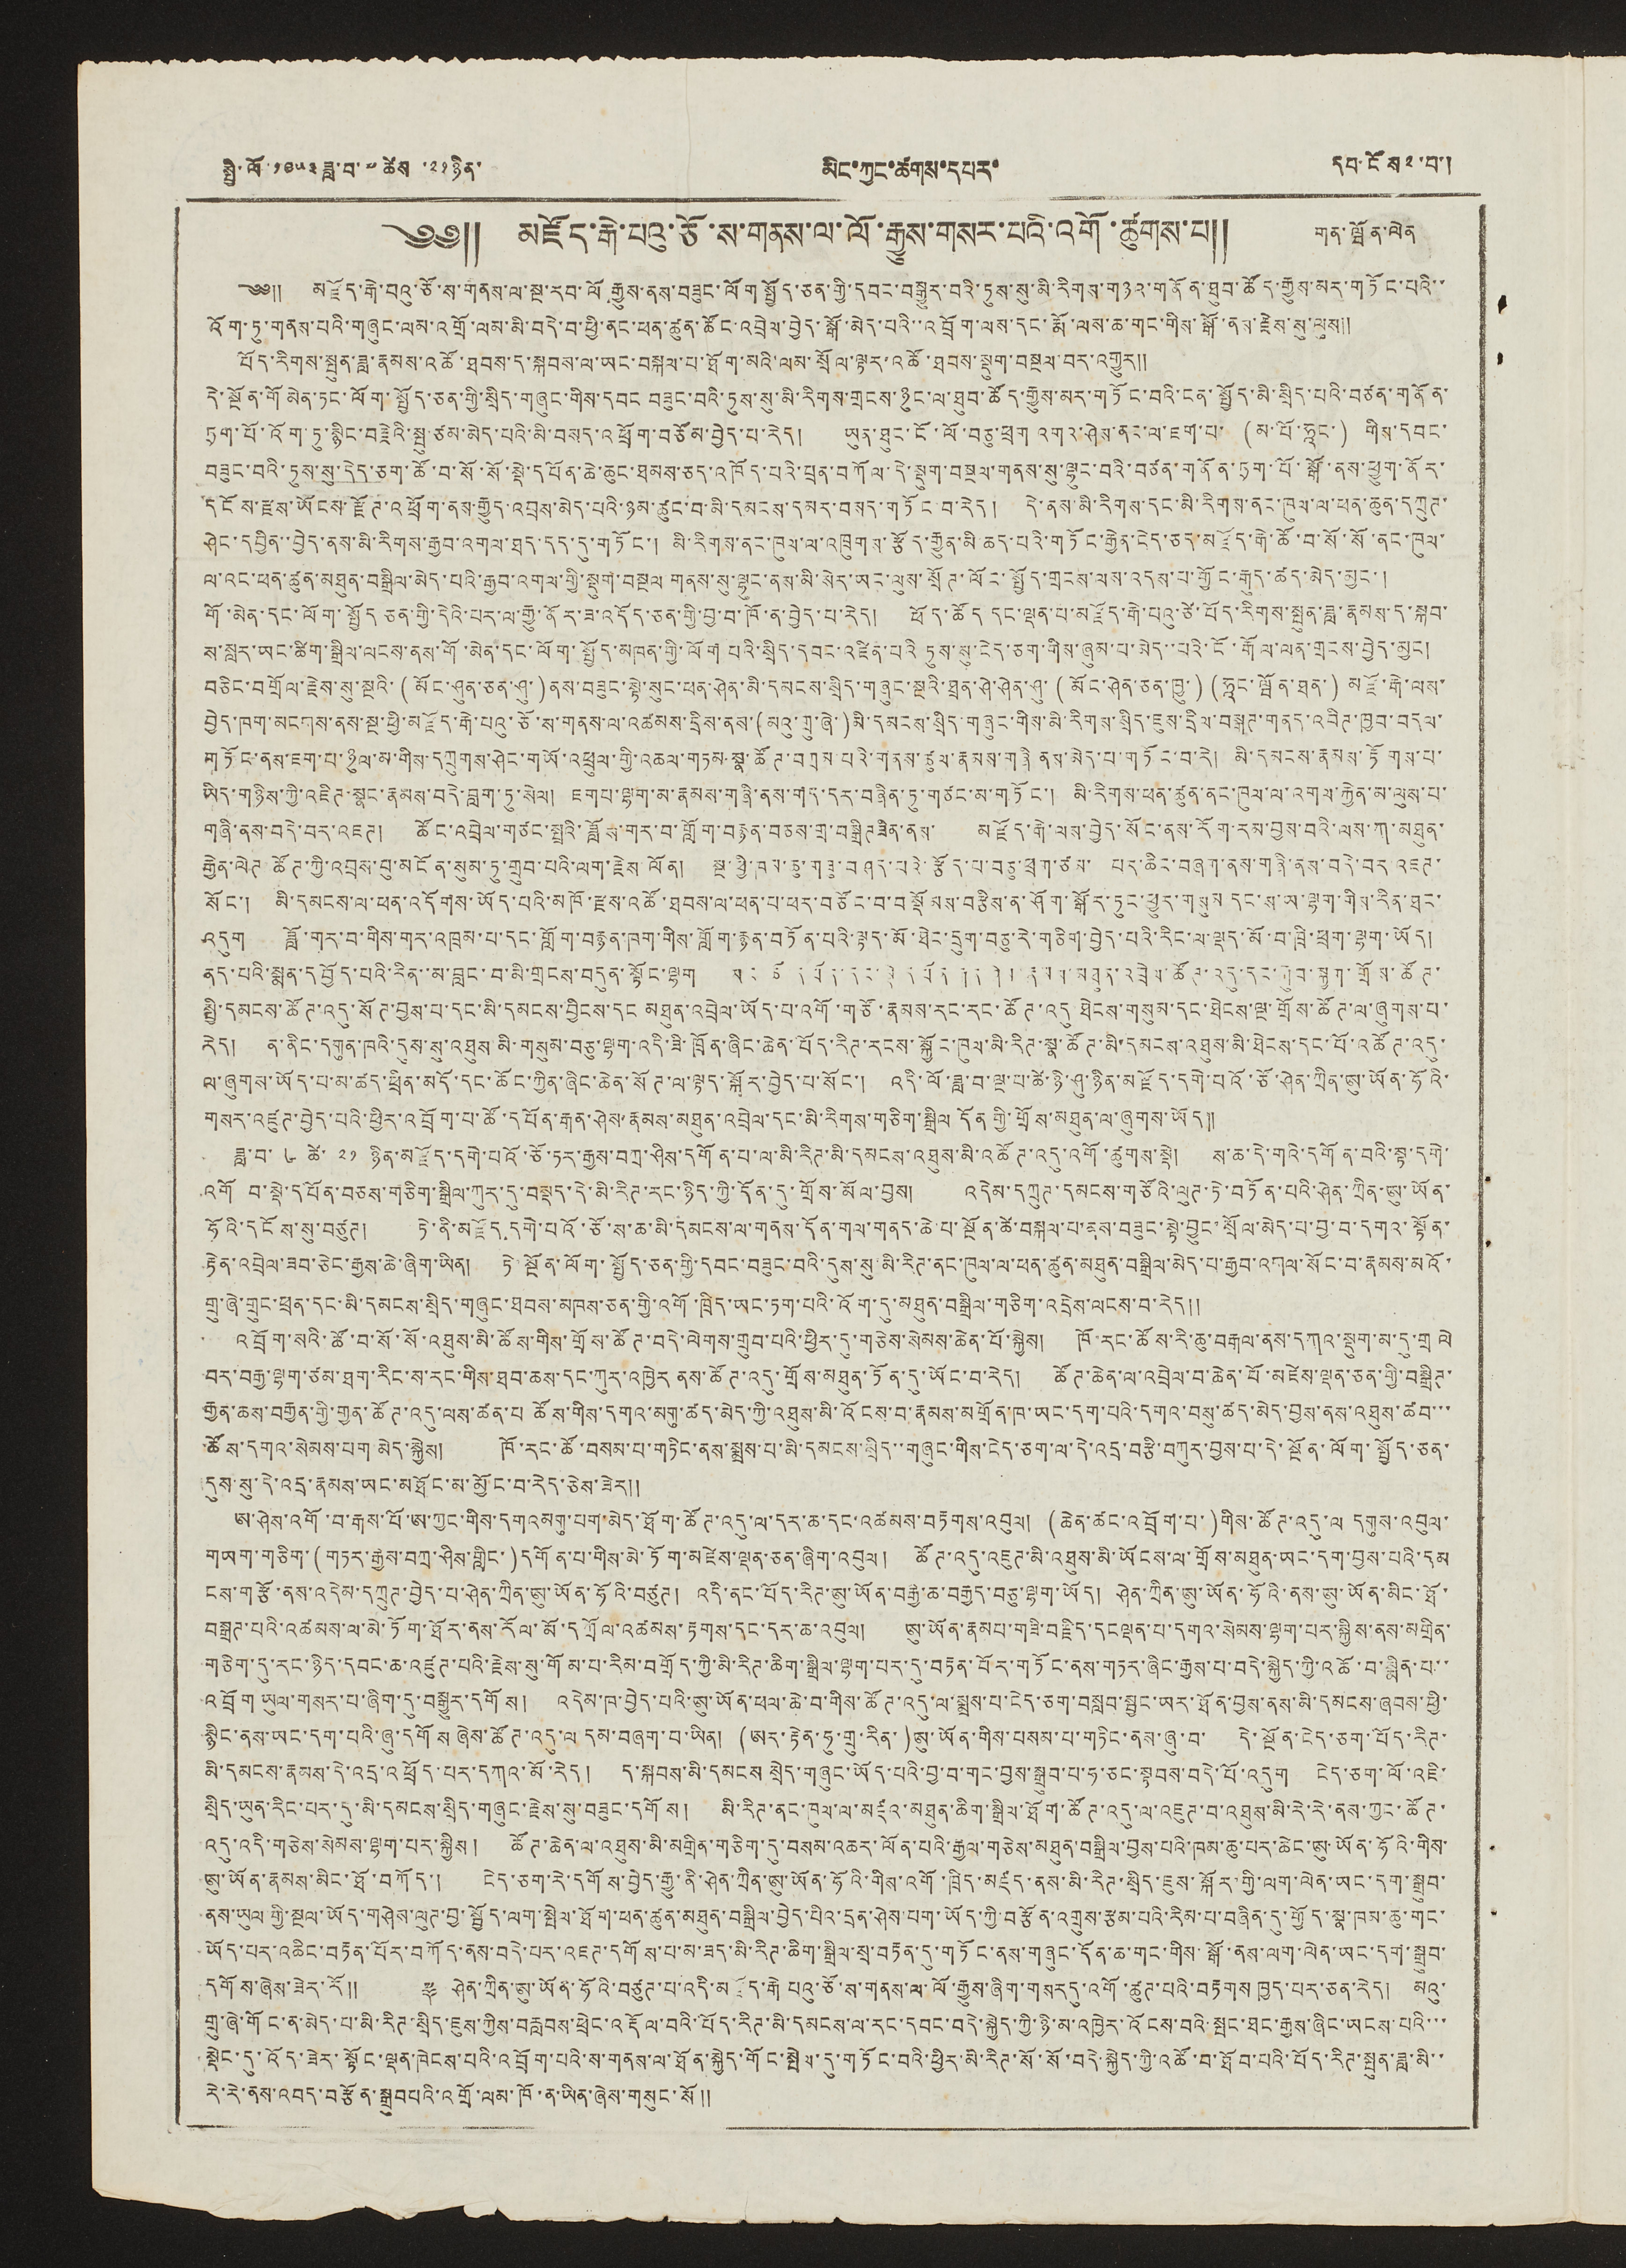སྤྱི་ལོ་ ༡༩༥༣ ཟླ་བ་ ༧ ཚེས ་༢༡ ཉིན་ མིང་ཀྱང་ཚགས་དཔར་ དཔ་ངོས ༢ ་བ་།
༄༅༎ མཛོད་རྒེ་པའུ་ཅོ་ས་གནས་ལ་ལོ་རྒྱུས་གསར་པའི་འགོ་ཚུགས་པ༎
གན་ཝོན་ལེན
༄༅༎ མཛོད་རྒེ་པའུ་ཅོ་ས་གནས་ལ་སྔ་རབ་ལོ་རྒྱུས་ནས་བཟུང་ལོག་སྤྱོད་ཅན་གྱི་དབང་བསྒྱུར་བའི་དུས་སུ་མི་རིགས་གཉའ་གནོན་ཐུབ་ཚོད་རྒྱུག་མར་གཏོང་པའི་་
འོག་ཏུ་གནས་པའི་གཞུང་ལམ་འགྲོ་ལམ་མི་བདེ་བ་ཕྱི་ནང་ཕན་ཚུན་ཚོང་འབྲེལ་བྱེད་སྒོ་མེད་པའི་་འབྲོག་ལས་དང་རྨོ་ལས་ཆ་གང་གིས་སྒོ་ནས་རྗེས་སུ་ལུས༎
བོད་རིགས་སྤུན་ཟླ་རྣམས་འཚོ་ཐབས་ད་སྐབས་ལ་ཡང་བསྐལ་བ་ཐོག་མའི་ལམ་སྲོལ་ལྟར་འཚོ་ཐབས་སྡུག་བསྔལ་བར་འགྱུར༎
དེ་སྔོན་གོ མེན་ཏང་ལོག་སྤྱོད་ཅན་གྱི་སྲིད་གཞུང་གིས་དབང བཟུང་བའི་ཏུས་སུ་མི་རིགས་གྲངས་ཉུང་ལ་ཐུབ་ཚོད་རྒྱུས་མར་གཏོང་བའི་ངན་སྤྱོད་མི་སྲིད་པའི་བཙན་གནོན་
ཏྲག་པོ་འོག་ཏུ་སྙིང་བརྗེའི་སྤུ་ཙམ་མེད་པའི་མི་བསད་འཕྲོག་བཙོམ་བྱེད་པ་རེད། ཡུན་ཐུང་ངོ་ལོ་བཅུ་ཕྲག འགའ ཤེས་ནང་ལ་ཇག་པ་ (མ་པོ་ཧཱང་) གིས་དབང་
བཟུང་བའི་ཏུས་སུ་དེད་ཅག་ཚོ་བ་སོ་སོ་སྡེ་དཔོན་ཆེ་ཆུང་ཐམས་ཅད་འཁོད་པའི་པྲན་བཀོལ་དེ་སྡུག་བསྔལ་གནས་སུ་ལྷུང་བའི་བཙན་གནོན་ཏྲག་པོ་སྒོ་ནས་ཕྱུག་ནོར་
དངོས་རྫས་ཡོངས་རྫོཊ་འཕྲོག་ནས་རྒྱུད་འབྲས་མེད་པའི་ཉམ་ཚུང་བ་མི་དམངས་དམར་བསད་གཏོང་བ་རེད། དེ་ནས་མི་རིགས་དང་མི་རིགས་ནང་ཁུལ་ལ་ཕན་ཆུན་དཀྲུཊ་
ཤེང་དབྱིན་་བྱེད་ནས་མི་རིགས་རྒྱབ་འགལ་ཐད་དད་དུ་གཏོང་། མི་རིགས་ནང་ཁུལ་ལ་འཁྲུགས་རྩོད་རྒྱུན་མི ཆད་པའི་གཏོང་རྒྱེན་ངེད་ཅད་མཛོད་རྒེ་ཚོ་བ་སོ་སོ་ནང་ཁུལ་
ལ་འང་ཕན་ཚུན་མཐུན་བསྒྲིལ་མེད་པའི་རྒྱབ་འགལ་གྱི་སྡུག་བསྔལ གནས་སུ་ལྷུང་ནས་མི་སེར་ཡང་ལུས་སྲོཊ་ལོང་སྤྱོད་གྲངས་ལས་འདས་པ་གྱོང་རྒུད་ཚད་མེད་མྱང་།
གོ་མེན་དང་ལོག་སྤྱོད ཅན་གྱི་དེའི་པར་ལ་རྒྱུ་ནོར་ཟ་འདོད་ཅན་གྱི་བྱ་བ་ཁོ་ན་བྱེད་པ་རེད། ཕོད་ཚོད དང་ལྡན་པ་མཛོད་རྒེ་པའུ་ཙེ་བོད་རིགས་སྤུན་ཟླ་རྣམས་ད་སྐབ་
ས་སླར་ཡང་ཚིག་སྒྲིལ་ལངས་ནས་གོ་མེད་དང་ལོག་སྤྱོད་མཁན་གྱི་ལོག པའི་སྲིད་དབང་འཛིན་པའི ཏུས་སུ་ངེད་ཅག་གིས་ཞུམ་པ་མེད་་པའི་ངོ་རྒོལ་ལན་གྲངས་བྱེད་མྱང།
བཅིང་བགྲོལ་རྗེས་སུ་སྔའི་ (མོང་ཤུན་ཅན་ཤུ་) ནས་བཟུང་སྟེ་སུང་ཕན་ཤེན་མི་དམངས་སྲིད་གཞུང་སྔའི་ཐྲན་ཤེ་ཤེན་ཤུ་ (མོང་ཤེན་ཅན་ཁྱུ་) (ཧཱང་ཝོན་ཐན་) མཛོ་རྒེ་ལས་
བྱེད་ཁག་མངགས་ནས་སྔ་ཕྱི་མཛོད་རྒེ་པའུ་ཅོ་ས་གནས་ལ་འཚམས་དྲིས་ནས་(མའུ་གྲུ་ཞེ་)མི་དམངས་སྲིད་གཞུང་གིས་མི་རིགས་སྲིད་ཇུས་དྲིལ་བསྒཊ་གནད་འབིཊ་ཁྱབ་བདལ་
གཏོང་ནས་ཇག་པ་ཉུལ་མ་གིས་དཀྲུགས་ཤེང་གཡོ་འཕྲུལ་གྱི་འཆལ་གཏམ་སྣ་ཚོཊ་བཀྲམ་པའི་གནས་ཚུལ་རྣམས་གཞི ནས་མེད་པ་གཏོང་བ་རེ། མི་དམངས་རྣམས་རྟོགས་པ་
ཡིད་གཉིས་ཀྱི་འཛིཊ་སྣང་རྣམས་བདེ་བླག་ཏུ་སེལ། ཇག པ་ལྷག་མ་རྣམས་གཞི་ནས་གད་དར་བཞིན་ཏུ་གཙང་མ་གཏོང་། མི་རིགས་ཕན་ཚུན་ནང་ཁུལ་ལ་འགལ་རྐྱེན་མ་ལུས་པ་
གཞི་ནས་བདེ་བར་འཇཊ། ཚོང་འབྲེལ་གཙང་སྤྲའི་ཟློས་གར་བ་གློག་བརྙན་བཅས་གྲ་བསྒྲིཊ ཟིན་ནས་ མཛོད་རྒེ་ལས་བྱེད་སོང་ནས་རོག་རམ་བྱས་བའི་ལས་ཀ་མཐུན་
རྒྱེན་ལེཊ ཚོཊ་ཀྱི་འབྲས་བུ་མངོན་སུམ་ཏུ་གྲུབ་པའི་ལག་རྗེས ལོན། སྔ་ཕྱི་ཁམ་ཆུ་གཟུ་བཤད་པའི་རྩོད་པ་བཅུ་ཕྲག་ཙམ་ བར་ཆིང་བཞག་ནས་གཞི་ནས་བདེ་བར འཇཊ་
སོང་། མི་དམངས་ལ་ཕན་འདོགས་ཡོད་པའི་མཁོ་རྫས་འཚོ་ཐབས་ལ་ཕན་པ་ཕར་བཙོང་བ་བསྡོམས་བརྩིས་ན་ཤོག་སྒོར་ཏུང་ཕྱུར་གསུམ དང་ས་ཡ་ལྷག་གིས་རིན་ཐང་
འདུག ཟློ་གར་བ་གིས་གར་འཁྲམ་པ་དང་གློག་བརྙན་ཁག་གིས་གློག་རྙན་བཏོན་པའི་ལྟད་མོ་ཐེང་དྲུག་བཅུ་རེ་གཅིག་བྱེད་པའི་རིང་ལ་ལྡད་མོ་བ་ཁྲི་ཕྲག་ལྷག་ཡོད།
ནད་པའི་སྨན་དབྱོད་པའི་རིན་་མ་བླང་བ་མི་གྲངས་བདུན་སྟོང་ལྷག ཡར་ཚོ་དཔོན་དང་སྡེ་དཔོན་རྒན་ཤེས་རྣམས་མཐུན་འབྲེལ་ཚོཊ་འདུ་དང་རྐུབ་སྐྱག་གྲོས་ཚོཊ་
སྤྱི་དམངས་ཚོཊ་འདུ་སོཊ་བྱས་པ་དང་མི་དམངས་བྱིངས་དང མཐུན་འབྲེལ་ཡོད་པ་འགོ་གཙོ་རྣམས་རང་རང་ཚོཊ་འདུ ཐེངས་གསུམ་དང་ཐེངས་ལྔ་གྲོས་ཚོཊ་ལ་ཞུགས་པ་
རེད། ན་ནིང་དགུན་ཁའི་དུས་སུ་འཐུས མི་གསུམ་བཅུ་ལྷག་འདི་ཟི་ཁྲོན་ཞིང་ཆེན་བོད་རིཊ་རངས་སྐྱོང་ཁུལ་མི་རིཊ་སྣ་ཚོཊ་མི་དམངས་འཐུས་མི་ཐེངས་དང་པོ་འཚོཊ་འདུ་
ལ་ཞུགས་ཡོད་པ་མ་ཚད་ཕྲིན་མདོ་དང་ཆོང་ཀྱིན་ཞིང་ཆེན་སོཊ་ལ་ལྟད་སྐོར་བྱེད་པ་སོང་། འདི་ལོ་ཟླ་བ་ལྔ་པ་ཚེ་ཉི་ཤུ་ཉིན་མཛོད་དགེ་པའོ་ཙོ་ཤེན་ཀྲིན་ཨུ་ཡོན་ཧོའི་
གསར་འཛུཊ་བྱེད་པའི་ཕྱིར་འབྲོག་པ་ཚོ་དཔོན་རྒན་ཤེས་རྣམས་མཐུན་འབྲེལ་དང་མི་རིགས་གཅིག་སྒྲིལ དོན་གྱི་གྲོས་མཐུན་ལ་ཞུགས་ཡོད༎
ཟླ་བ་ ༦ ཚེ་ ༢༡ ཉིན་མཛོད་དགེ་པའོ་ཅོ་ཏར་རྒྱས་བཀྲ་ཤིས་དགོན་པ་ལ་མི་རིཊ་མི་དམངས་འཐུས་མི་འཚོཊ་འདུ་འགོ་ཚུགས་སྡེ། ས་ཆ་དེ་གའི་དགོན་བའི་སྟ་དགེ་
འགོ བ་སྡེ་དཔོན་བཅས་གཅིག་སྒྲིལ་ཀུར་དུ་བསྡད་དེ་མི་རིཊ་རང་ཉིད་ཀྱི་དོན་དུ་གྲོས་མོལ་བྱས། འདེམ་དཀྲུཊ་དམངས་གཙོའི་ལུཊ་ཏེ་བཏོན་པའི་ཤེན་ཀྲིན་ཨུ་ཡོན་
ཧོའི་དངོས་སུ་བཙུཊ། ཏེ་ནི་མཛོད དགེ་པའོ་ཙོ་ས་ཆ་མི་དམངས་ལ་གནས་དོན་གལ་གནད་ཆེ་པ་སྔོན་ཚེ་བསྐལ་པ་ནས་བཟུང་སྟེ་བྱུང་སྲོལ་མེད་པ་བྱ་བ་དགའ་སྟོན་
རྟེན་འབྲེལ་ཟབ་ཅེང་རྒྱས་ཆེ་ཞིག་ཡིན། ཏེ་སྔོན་ལོག་སྤྱོད་ཅན་གྱི་དབང་བཟུང་བའི་དུས་སུ་མི་རིཊ་ནང་ཁུལ་ལ་ཕན་ཚུན་མཐུན་བསྒྲིལ་མེད་པ་རྒྱབ་འགལ་སོང་བ་རྣམས་མའོ་
གྲུ་ཞེ་གྲུང་ཕྲན་དང་མི་དམངས་སྲིད་གཞུང་ཐབས་མཁས་ཅན་གྱི་འགོ་ཁྲིད་ཡང་ཏག་པའི་འོག་དུ་མཐུན་བསྒྲིལ་གཅིག་འདྲེས་ལངས་བ་རེད༎
འབྲོག་སའི་ཚོ་བ་སོ་སོ་འཐུས་མི་ཚོས་གིས་གྲོས་ཚོཊ་བདེ་ལེགས་གྲུབ་པའི་ཕྱིར་དུ་གཅེས་སེམས་ཆེན་པོ་སྐྱེས། ཁོ་རང་ཚོས་རི་ཆུ་བརྒལ་ནས་དཀའ་སྡུག་མ་དུ་གྲ ལེ
བར་བརྒྱ་ལྷག་ཙམ་ཐག་རིང་ས་རང་གིས་ཐབ་ཆས་དང་ཀུར་འཁྱེར ནས་ཚོཊ་འདུ་གྲོས་མཐུན་ཏོན་དུ་ཡོང་བ་རེད། ཚོཊ་ཆེན་ལ་འབྲེལ་བ་ཆེན་པོ་མཛེས་ལྡན་ཅན་གྱི་བསྒྲིཊ་
རྒྱན་ཆས་བརྒྱན་གྱི་གྱན་ཚོཊ་འདུ་ལས་ཚན་པ ཚོས་གིས་དགའ་མགུ་ཚད་མེད་ཀྱི་འཐུས་མི་འོངས་བ་རྣམས་མགྲོན་ཁ་ཡང་དག་པའི་དགའ་བསུ་ཚད་མེད་བྱས་ནས་འཐུས་ཚབ་་་
ཚོས་དགའ་སེམས་པག མེད་སྐྱེས། ཁོ་རང་ཚོས་བསམ་པ་གཏིང་ནས་སྨྲས་པ་མི་དམངས་སྲིད་་གཞུང་གིས་ངེད་ཅག་ལ་དེ་འདྲ་བརྩི་བཀུར་བྱས་པ་དེ་སྔོན་ལོག་སྤྱོད་ཅན་
དུས་སུ་དེ་འདྲ་རྣམས་ཡང་མཐོང་མ་མྱོང་བ་རེད་ཅེས་ཟེར༎
ཨ་ཤེས་འགོ་བ་རྒས་པོ་ཨ་ཀྱང་གིས་དགའ མགུ་པག་མེད་ཐོག་ཚོཊ་འདུ་ལ་དར་ཆ་དང་འཚམས་བརྟགས་འབུལ། (ཆེན་ཚང་འབྲོག་པ་)གིས་ཚོཊ་འདུ་ལ དགུས་འབུལ་
གཡག་གཅིག་(གཏར་རྒྱས་བཀྲ་ཤིས་གླིང་)དགོན་པ་གིས་མེ་ཏོག་མཛེས་ལྡན་ཅན་ཞིག་འབུལ། ཚོཊ་འདུ་འཇུཊ་མི་འཐུས་མི་ཡོངས་ལ་གྲོས་མཐུན་ཡང་དག་བྱས་པའི་དམ
ངས་གཙོ་ནས་འདེམ་དཀྲུཊ་བྱེད་པ་ཤེན་ཀྲིན་ཨུ་ཡོན་ཧོའི་བཙུཊ། འདི་ནང་བོད་རིཊ་ཨུ་ཡོན་བརྒྱ་ཆ་བརྒྱད་བཅུ་ལྷག་ཡོད། ཤེན་ཀྲིན་ཨུ་ཡོན་ཧོའི་ནས་ཨུ་ཡོན་མིང་ཐོ་
བསྒྲཊ་པའི་འཚམས་ལ་མེ་ཏོག་ཐོར་ནས་རོལ་མོ་དཀྲོལ་འཚམས་རྟགས་དང་དར་ཆ་འབུལ། ཨུ་ཡོན་རྣམས་གཟི་བརྗིད་དངལྡན་པ་དགའ་སེམས་ལྷག་པར་སྐྱིས་ནས་མགྲིན་
གཅིག་དུ་རང་ཉིད་དབང་ཆ་འཛུཊ་པའི་རྗེས་སུ་གོམ་པ་རིམ་བགྲོད་ཀྱི་མི་རིཊ་ཆིག་སྒྲིལ་ལྷག་པར་དུ་བརྟན་པོར་གཏོང་ནས་གཏར་ཞིང་རྒྱས་པ་བདེ་སྐྱེད་ཀྱི་འཆོ་བ་སྨིན་པ་་
འབྲོག ཡུལ་གསར་པ་ཞིག་དུ་བསྒྱུར་དགོས། འདེམ་ཁ་བྱེད་པའི་ཨུ་ཡོན་ཕལ་ཆེ་བ་གིས་ཚོཊ་འདུ་ལ་སྨྲས་པ་ངེད་ཅག་བསླབ་སྦྱང་ཡར་ཐོན་བྱས་ནས་མི་དམངས་ཞབས་ཕྱི་
སྙིང་ནས་ཡང་དག་པའི་ཞུ་དགོས་ཞེས་ཚོཊ་འདུ་ལ དམ་བཞག་པ་ཡིན། (ཨར་རྟེན་ཧུ་གྲུ་རིན་)ཨུ་ཡོན་གིས་བསམ་པ་གཏིང་ནས་ཞུ་བ་ དེ་སྔོན་ངེད་ཅག་བོད་རིཊ་
མི་དམངས་རྣམས་དེ་འདྲ་འཕྲོད་པར་དཀའ་མོ་རེད། ད་སྐབས་མི་དམངས སྲིད་གཞུང་ཡོད་པའི་བྱ་བ་གང་བྱས་སྒྲུབ་པ་ཧ་ཅང་སྟབས་བདེ་པོ་འདུག ངེད་ཅག་ལོ་འཇི་
སྲིད་ཡུན་རིང་པར་དུ་མི་དམངས་སྲིད་གཞུང་རྗེས་སུ་བཟུང་དགོས། མི་རིཊ་ནང་ཁུལ་ལ་མཛའ་མཐུན་ཆིག་སྒྲིལ་ཐོག་ཚོཊ་འདུ་ལ་འཇུཊ་བ་འཐུས་མི་རེ་རེ་ནས་ཀྱང་ཚོཊ་
འདུ་འདི་གཅེས་སེམས་ལྷག་པར་སྐྱིས། ཚོཊ་ཆེན་ལ་འཐུས་མི་མགྲིན་གཅིག་དུ་བསམ་འཆར་ལོན་པའི་རྒྱལ་གཅེས་མཐུན་བསྒྲིལ་བྱས་པའི་ཁམ་ཆུ་པར་ཆེང་ཨུ་ཡོན་ཧོའི་གིས་
ཨུ་ཡོན་རྣམས་མིང་ཐོ་བཀོད་། ངེད་ཅག་རེ་དགོས་བྱེད་རྒྱུ་ནི་ཤེན་ཀྲིན་ཨུ་ཡོན་ཧོའི་གིས་འགོ་ཁྲིད་མཛད་ནས་མི་རིཊ་སྲིད་ཇུས་སྐོར་གྱི་ལག་ལེན་ཡང་དག་སྒྲུབ་
ནས་ཡུལ གྱི་སྔལ་ཡོད་གཤེས་ལུཊ་བྱ་སྦྱོད་ལག་སྤེལ་ཐོག་ཕན་ཚུན་མཐུན་བསྒྲིལ་བྱེད་པིའ་དྲན་ཤེས་པག་ཡོད་ཀྱི་བརྩོན་འགྲུས་རྩམ་པའི་རིམ་པ་བཞིན་དུ་གྱོད་སྣ་ཁམ་ཆུ་གང་
ཡོད་པར་འཆིང་བརྟན་པོར་བཀོད་ནས་བདེ་པར་འཇཊ་དགོས་པ་མ་ཟད་མི་རིཊ་ཆིག་སྒྲིལ་སྲ་བརྟན་དུ་གཏོང་ནས་གཞུང་དོན་ཆ་གང་གིས་སྒོ་ནས་ལག་ལེན་ཡང་དག་སྒྲུབ་
དགོས་ཞེས་ཟེར་རོ༎ ༈ ཤེན་ཀྲིན་ཨུ་ཡོན་ཧོའི་བཙུཊ་པ་འདི་མཛོད་རྒེ པའུ་ཙོ་ས་གནས་ལ་ལོ་རྒྱུས་ཞིག་གསར དུ་འགོ་ཚུཊ་པའི་བརྟགས ཁྱད་པར་ཅན་རེད། མའུ་
གྲུ་ཞེ་གོང་ན་མེད་པ་མི་རིཊ་སྲིད་ཇུས་ཀྱིས་བརླབས་ཕྲེང་འརྡོལ་བའི་བོད་རིཊ་མི་དམངས་ལ་རང་དབང་བདེ་སྐྱེད་ཀྱི་ཉི་མ་འཁྱེར་འོངས་བའི་སྤང་ཐང་རྒྱས་ཞིང་ཡངས་པའི་་་
སྡེང་དུ་འོད་ཟེར་སྟོང་ལྡན་ཁེངས་པའི་འབྲོག་པའི་ས་གནས་ལ་ཐོན་སྐྱེད་གོང་སྤེལ་དུ་གཏོང་བའི་ཕྱིར་མི་རིཊ་སོ་སོ་བདེ་སྐྱེད་ཀྱི་འཚོ་བ་ཐོབ་པའི་བོད་རིཊ་སྤུན་ཟླ་མི་་
རེ་རེ་ནས་འབད་བརྩོན་སྒྲུབཔའི་འགྲོ་ལམ་ཁོ་ན་ཡིན་ཞེས་གསུང་སོ ༎
